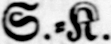S.-K.
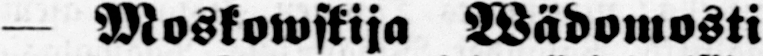— Woskowskija Wädomosti
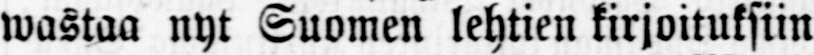wastaa nyt Suomen lehtien kirjoituksiin
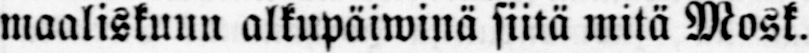maaliskuun alkupäiwinä siitä mitä Mosk.
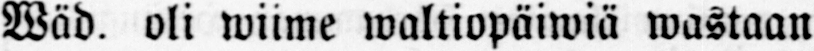Wäd. oli wiime waltiopäiwiä wastaan
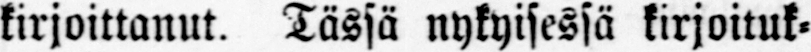kirjoittanut. Tässä nykyisessä kirjoituk-
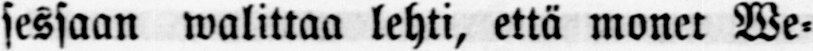sessaan walittaa lehti, että monet We-
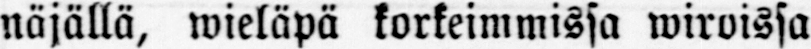näjällä, wieläpä korkeimmissa wiroissa
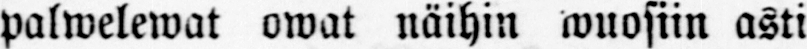palwelewat owat näihin wuosiin asti
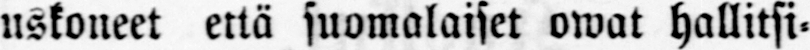uskoneet että suomalaiset owat hallitsi-
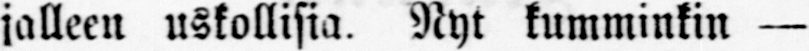jalleen uskollisia. Nyt kumminkin —
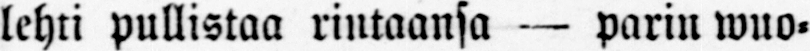lehti pullistaa rintaansa — parin wuo-
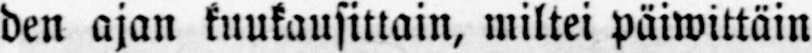den ajan kuukausittain, miltei päiwittäin
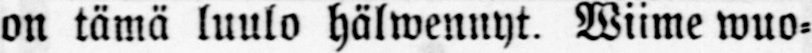on tämä luulo hälwennyt. Wiime wuo-
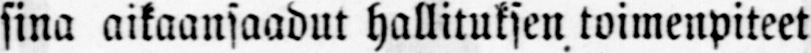sina aikaansaadut hallituksen toimenpiteet
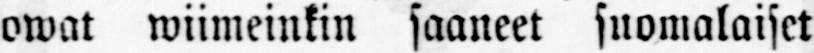owat wiimeinkin saaneet suomalaiset
